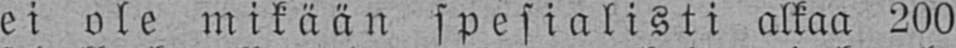ei ole mikään spesialisti alkaa 200
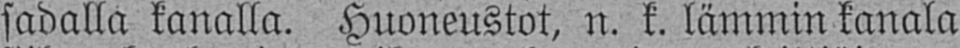sadalla kanalla. Huoneustot, n. k. lämmin kanala
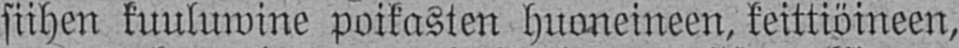siihen kuuluwine poikasten huoneineen, keittiöineen,
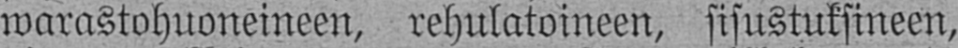warastohuoneineen, rehulatoineen, sisustuksineen,
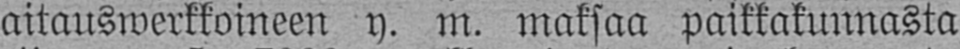aitauswerkkoineen y. m. maksaa paikkakunnasta
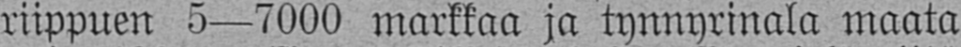riippuen 5—7000 markkaa ja tynnyrinala maata
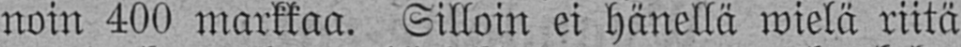noin 400 markkaa. Silloin ei hänellä wielä riitä
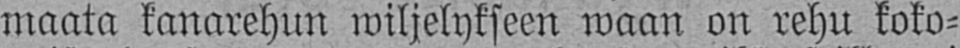maata kanarehun wiljelykseen waan on rehu koko-
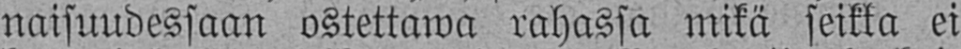naisuudessaan ostettawa rahassa mikä seikka ei
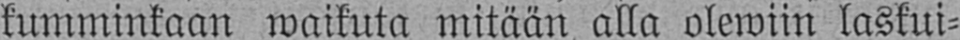kumminkaan waikuta mitään alla olewiin laskui-
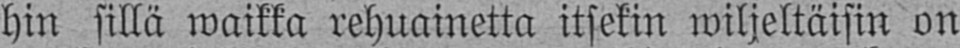hin sillä waikka rehuainetta itsekin wiljeltäisin on
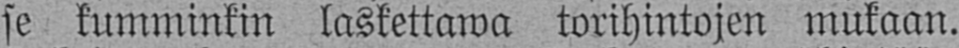se kumminkin laskettawa torihintojen mukaan.
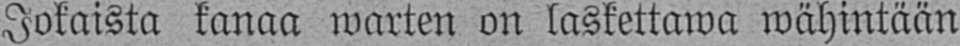Jokaista kanaa warten on laskettawa wähintään
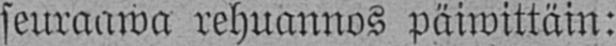seuraawa rehuannos päiwittäin:
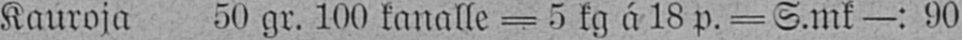Kauroja 50 gr. 100 kanalle = 5 kg ä 18 p. = S.mk —: 90
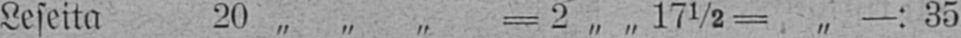Leseita 20 „ „ „ = 2 „ „ 17½ = „ —: 35
